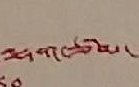ལྷག་ཙམ་
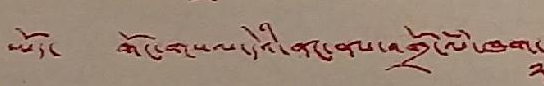ཡོད་ གོང་གསལ་དེའི་ནང་ནས་འགྲོ་ལཾ་ཁག་
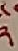༢
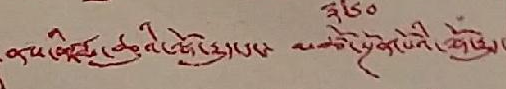ནས་ནི་རྨ་ཆུའི་ལྷོ་རྒྱུད་དང་ མཚོ་སྔོན་པོའི་ལྷོ་རྒྱུད་
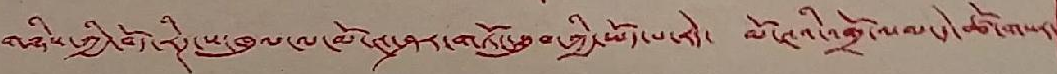གཉིས་ཀྱི་བོད་རིཊ་ས་ཁུལ་ལ་མོ་ཊ་ཤར་གཏོང་ཐུབ་ཀྱི་ཡོད་པ་རེད་ མོ་ཊའི་འགྲོ་ལམ་དེ་ཚོ་གསར་
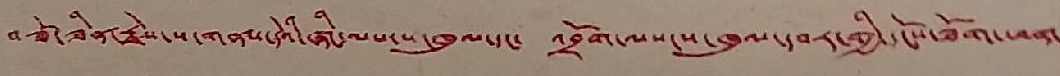བཟོ་ཟིན་རྗེས་ས་གནས་དེའི་ཞིང་ལས་ས་ཁུལ་དང་ འབྲོག་ལས་ས་ཁུལ་དབར་གྱི་དངོས་ཟོག་ཕན་
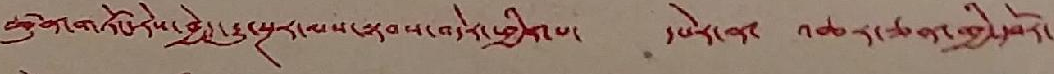ཚུན་གཏོང་རེས་བྱེད་རྒྱུ་སྔར་ལས་སྟབས་བདེར་ཕྱིན་པ་ དཔེར་ན་ འཆར་ཅན་གྱི་དབོར་
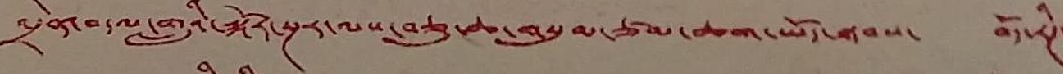འདྲེན་བ་ལ་གླའི་སྐོར་སྔར་ལས་བཅུ་ཆ་གསུམ་ཙམ་ཆག་ཡོད་སྟབས་ བོད་རིཊ་
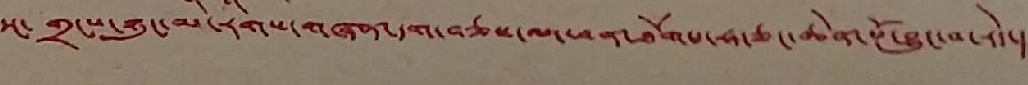དང་ གྲངས་ཉུང་མི་རིགས་གཞན་དག་བཅས་ལ་ཕན་ཐོགས་ཧ་ཅང་ཆེན་པོ་བྱུང་བ་རེད་།
